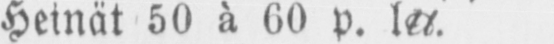Heinät 50 ä 60 p. l+U+2114,
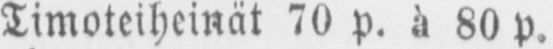Timoteiheinät 70 p. ä 80 p. l+U+2114,
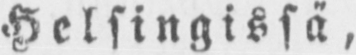Helsingissä,
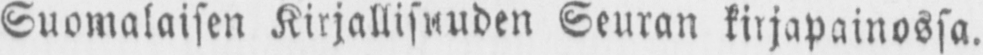Suomalaisen Kirjallisuuden Seuran kirjapainossa.
